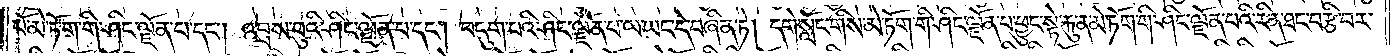པོ་མེ་ཏོག་གི་ཤིང་ལྗོན་པ་དང༌། འབྲས་བུའི་ཤིང་ལྗོན་པ་དང༌། བདུག་པའི་ཤིང་ལྗོན་པ་ལ་ཡང་དེ་བཞིན་ཏེ། དགེ་སློང་གིས་མེ་ཏོག་གི་ཤིང་ལྗོན་པ་ཕྱུང་སྟེ་རྐུ་ན་མེ་ཏོག་གི་ཤིང་ལྗོན་པའི་རིན་ཐང་བརྩི་བར་
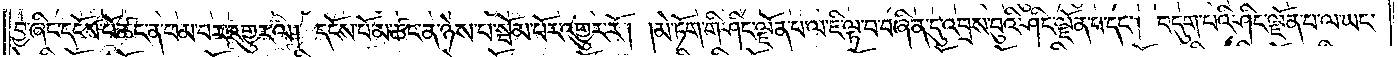བྱ་ཞིང་དངོས་པོ་ཚང་ན་ཕམ་པར་འགྱུར་ལ། དངོས་པོ་མ་ཚང་ན་ཉེས་པ་སྦོམ་པོར་འགྱུར་རོ། །མེ་ཏོག་གི་ཤིང་ལྗོན་པ་ལ་ཇི་ལྟ་བ་བཞིན་དུ་འབྲས་བུའི་ཤིང་ལྗོན་པ་དང༌། བདུག་པའི་ཤིང་ལྗོན་པ་ལ་ཡང་
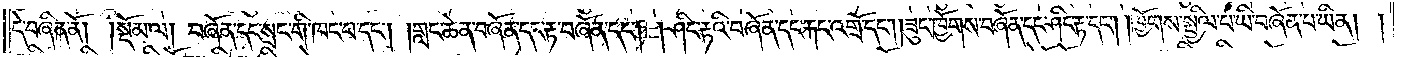དེ་བཞིན་ནོ། །སྡོམ་ལ། བཞོན་དང་སྲང་གི་ཁང་པ་དང༌། །གླང་ཆེན་བཞོན་དང་རྟ་བཞོན་དང༌། །ཤིང་རྟའི་བཞོན་དང་རྐང་འགྲོ་དང༌། །ཟུང་ཁྱོགས་བཞོན་དང་ཤིང་རྟ་དང༌། །ཁྱོགས་སྤྱིལ་པ་ཡི་བཞོན་པ་ཡིན། །
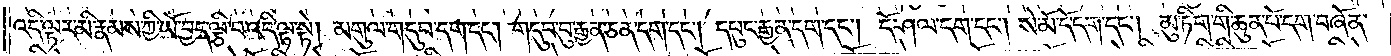འདི་ལྟར་མི་རྣམས་ཀྱི་ཡོ་བྱད་ལྕི་བ་འདི་ལྟ་སྟེ། མགུལ་གདུབ་དག་དང༌། གདུབ་བུ་རྒྱན་ཅན་དག་དང༌། དཔུང་རྒྱན་དག་དང༌། དོ་ཤལ་དག་དང༌། སེ་མོ་དོ་དག་དང༌། མུ་ཏིག་གི་ཆུན་པོ་དག་བཞོན་
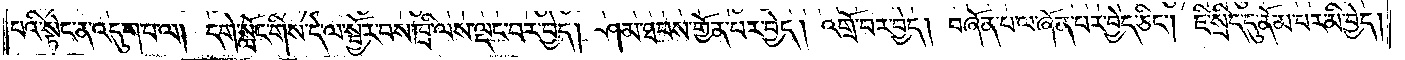པའི་སྟེང་ན་འདུག་པ་ལ། དགེ་སློང་གིས་དེ་ལ་སྦྱོར་བས་ཁྲི་ལས་ལྡང་བར་བྱེད། ཤམ་ཐབས་གྱོན་པར་བྱེད། འགྲོ་བར་བྱེད། བཞོན་པ་ལ་ཞོན་པར་བྱེད་ཅིང༌། ཇི་སྲིད་དུ་ནོམ་པར་མི་བྱེད།
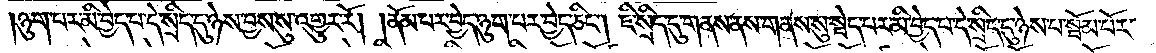།ཉུག་པར་མི་བྱེད་པ་དེ་སྲིད་དུ་ཉེས་བྱས་སུ་འགྱུར་རོ། །ནོམ་པར་བྱེད་ཉུག་པར་བྱེད་ཅིང༌། ཇི་སྲིད་དུ་གནས་ནས་གནས་སུ་སྦེད་པར་མི་བྱེད་པ་དེ་སྲིད་དུ་ཉེས་པ་སྦོམ་པོར་
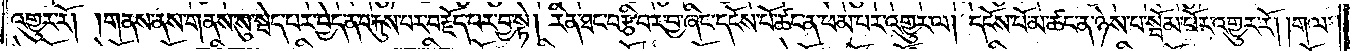འགྱུར་རོ། །གནས་ནས་གནས་སུ་སྦེད་པར་བྱེད་ན་བརྐུས་པར་བརྗོད་པར་བྱ་སྟེ། རིན་ཐང་བརྩི་བར་བྱ་ཞིང་དངོས་པོ་ཚང་ན་ཕམ་པར་འགྱུར་ལ། དངོས་པོ་མ་ཚང་ན་ཉེས་པ་སྦོམ་པོར་འགྱུར་རོ། །གལ་
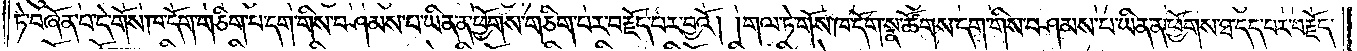ཏེ་བཞོན་པ་དེ་གོས་ཁ་དོག་གཅིག་པ་དག་གིས་བཤམས་པ་ཡིན་ན་ཕྱོགས་གཅིག་པར་བརྗོད་པར་བྱའོ། །གལ་ཏེ་གོས་ཁ་དོག་སྣ་ཚོགས་དག་གིས་བཤམས་པ་ཡིན་ན་ཕྱོགས་ཐ་དད་པར་བརྗོད་
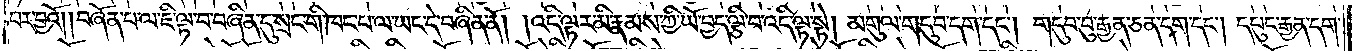པར་བྱའོ། །བཞོན་པ་ལ་ཇི་ལྟ་བ་བཞིན་དུ་སྲང་གི་ཁང་པ་ལ་ཡང་དེ་བཞིན་ནོ། །འདི་ལྟར་མི་རྣམས་ཀྱི་ཡོ་བྱད་ལྕི་བ་འདི་ལྟ་སྟེ། མགུལ་གདུབ་དག་དང༌། གདུབ་བུ་རྒྱན་ཅན་དག་དང༌། དཔུང་རྒྱན་དག་
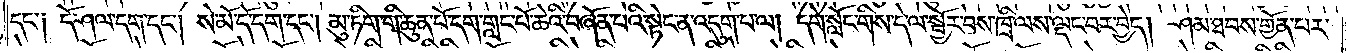དང་༑ དོ་ཤལ་དག་དང༌། སེ་མོ་དོ་དག་དང༌། མུ་ཏིག་གི་ཆུན་པོ་དག་གླང་པོ་ཆེའི་བཞོན་པའི་སྟེང་ན་འདུག་པ་ལ། དགེ་སློང་གིས་དེ་ལ་སྦྱོར་བས་ཁྲི་ལས་ལྡང་བར་བྱེད། ཤམ་ཐབས་གྱོན་པར་
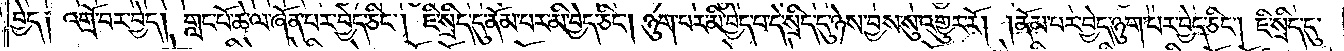བྱེད༑ འགྲོ་བར་བྱེད། གླང་པོ་ཆེ་ལ་ཞོན་པར་བྱེད་ཅིང༌། ཇི་སྲིད་དུ་ནོམ་པར་མི་བྱེད་ཅིང༌། ཉུག་པར་མི་བྱེད་པ་དེ་སྲིད་དུ་ཉེས་བྱས་སུ་འགྱུར་རོ། །ནོམ་པར་བྱེད་ཉུག་པར་བྱེད་ཅིང༌། ཇི་སྲིད་དུ་
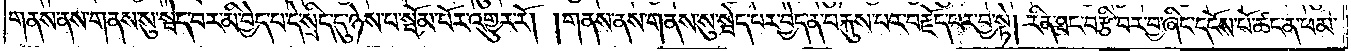གནས་ནས་གནས་སུ་སྦེད་པར་མི་བྱེད་པ་དེ་སྲིད་དུ་ཉེས་པ་སྦོམ་པོར་འགྱུར་རོ། །གནས་ནས་གནས་སུ་སྦེད་པར་བྱེད་ན་བརྐུས་པར་བརྗོད་པར་བྱ་སྟེ། རིན་ཐང་བརྩི་བར་བྱ་ཞིང་དངོས་པོ་ཚང་ན་ཕམ་
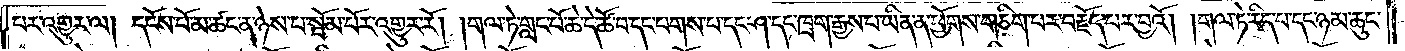པར་འགྱུར་ལ། དངོས་པོ་མ་ཚང་ན་ཉེས་པ་སྦོམ་པོར་འགྱུར་རོ། །གལ་ཏེ་གླང་པོ་ཆེ་དེ་ཚོ་བ་དང་པགས་པ་དང་ཤ་དང་ཁྲག་རྒྱས་པ་ཡིན་ན་ཕྱོགས་གཅིག་པར་བརྗོད་པར་བྱའོ། །གལ་ཏེ་རིད་པ་དང་ཉམ་ཆུང་
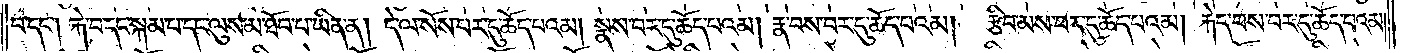བ་དང༌། རྐེ་བ་དང་སྐམ་པ་དང་ལུས་མ་ཐོབ་པ་ཡིན་ན། དེ་ལ་སོས་པར་དུ་ཆོད་པའམ། སྣས་པར་དུ་ཆོད་པའམ། རྣ་བས་བར་དུ་ཆོད་པའམ།  རྩིབ་མས་བར་དུ་ཆོད་པའམ། རྐེད་པས་བར་དུ་ཆོད་པའམ།
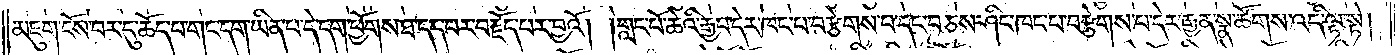མཇུག་ངོས་པར་དུ་ཆོད་པ་གང་དག་ཡིན་པ་དེ་དག་ཕྱོགས་ཐ་དད་པར་བརྗོད་པར་བྱའོ། །གླང་པོ་ཆེའི་རྒྱབ་དེར་ཁང་པ་བརྩེགས་པ་དང་བཅས་ཤིང་ཁང་པ་བརྩེགས་པ་དེར་རྒྱན་སྣ་ཚོགས་འདི་ལྟ་སྟེ།
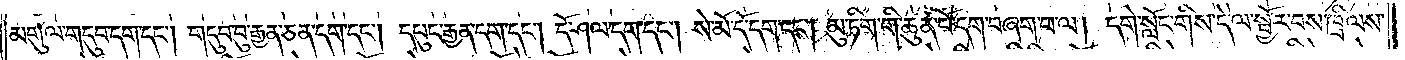མགུལ་གདུབ་དག་དང༌། གདུབ་བུ་རྒྱན་ཅན་དག་དང༌། དཔུང་རྒྱན་དག་དང༌། དོ་ཤལ་དག་དང༌། སེ་མོ་དོ་དག་དང༌། མུ་ཏིག་གི་ཆུན་པོ་དག་བཞག་པ་ལ། དགེ་སློང་གིས་དེ་ལ་སྦྱོར་བས་ཁྲི་ལས་
